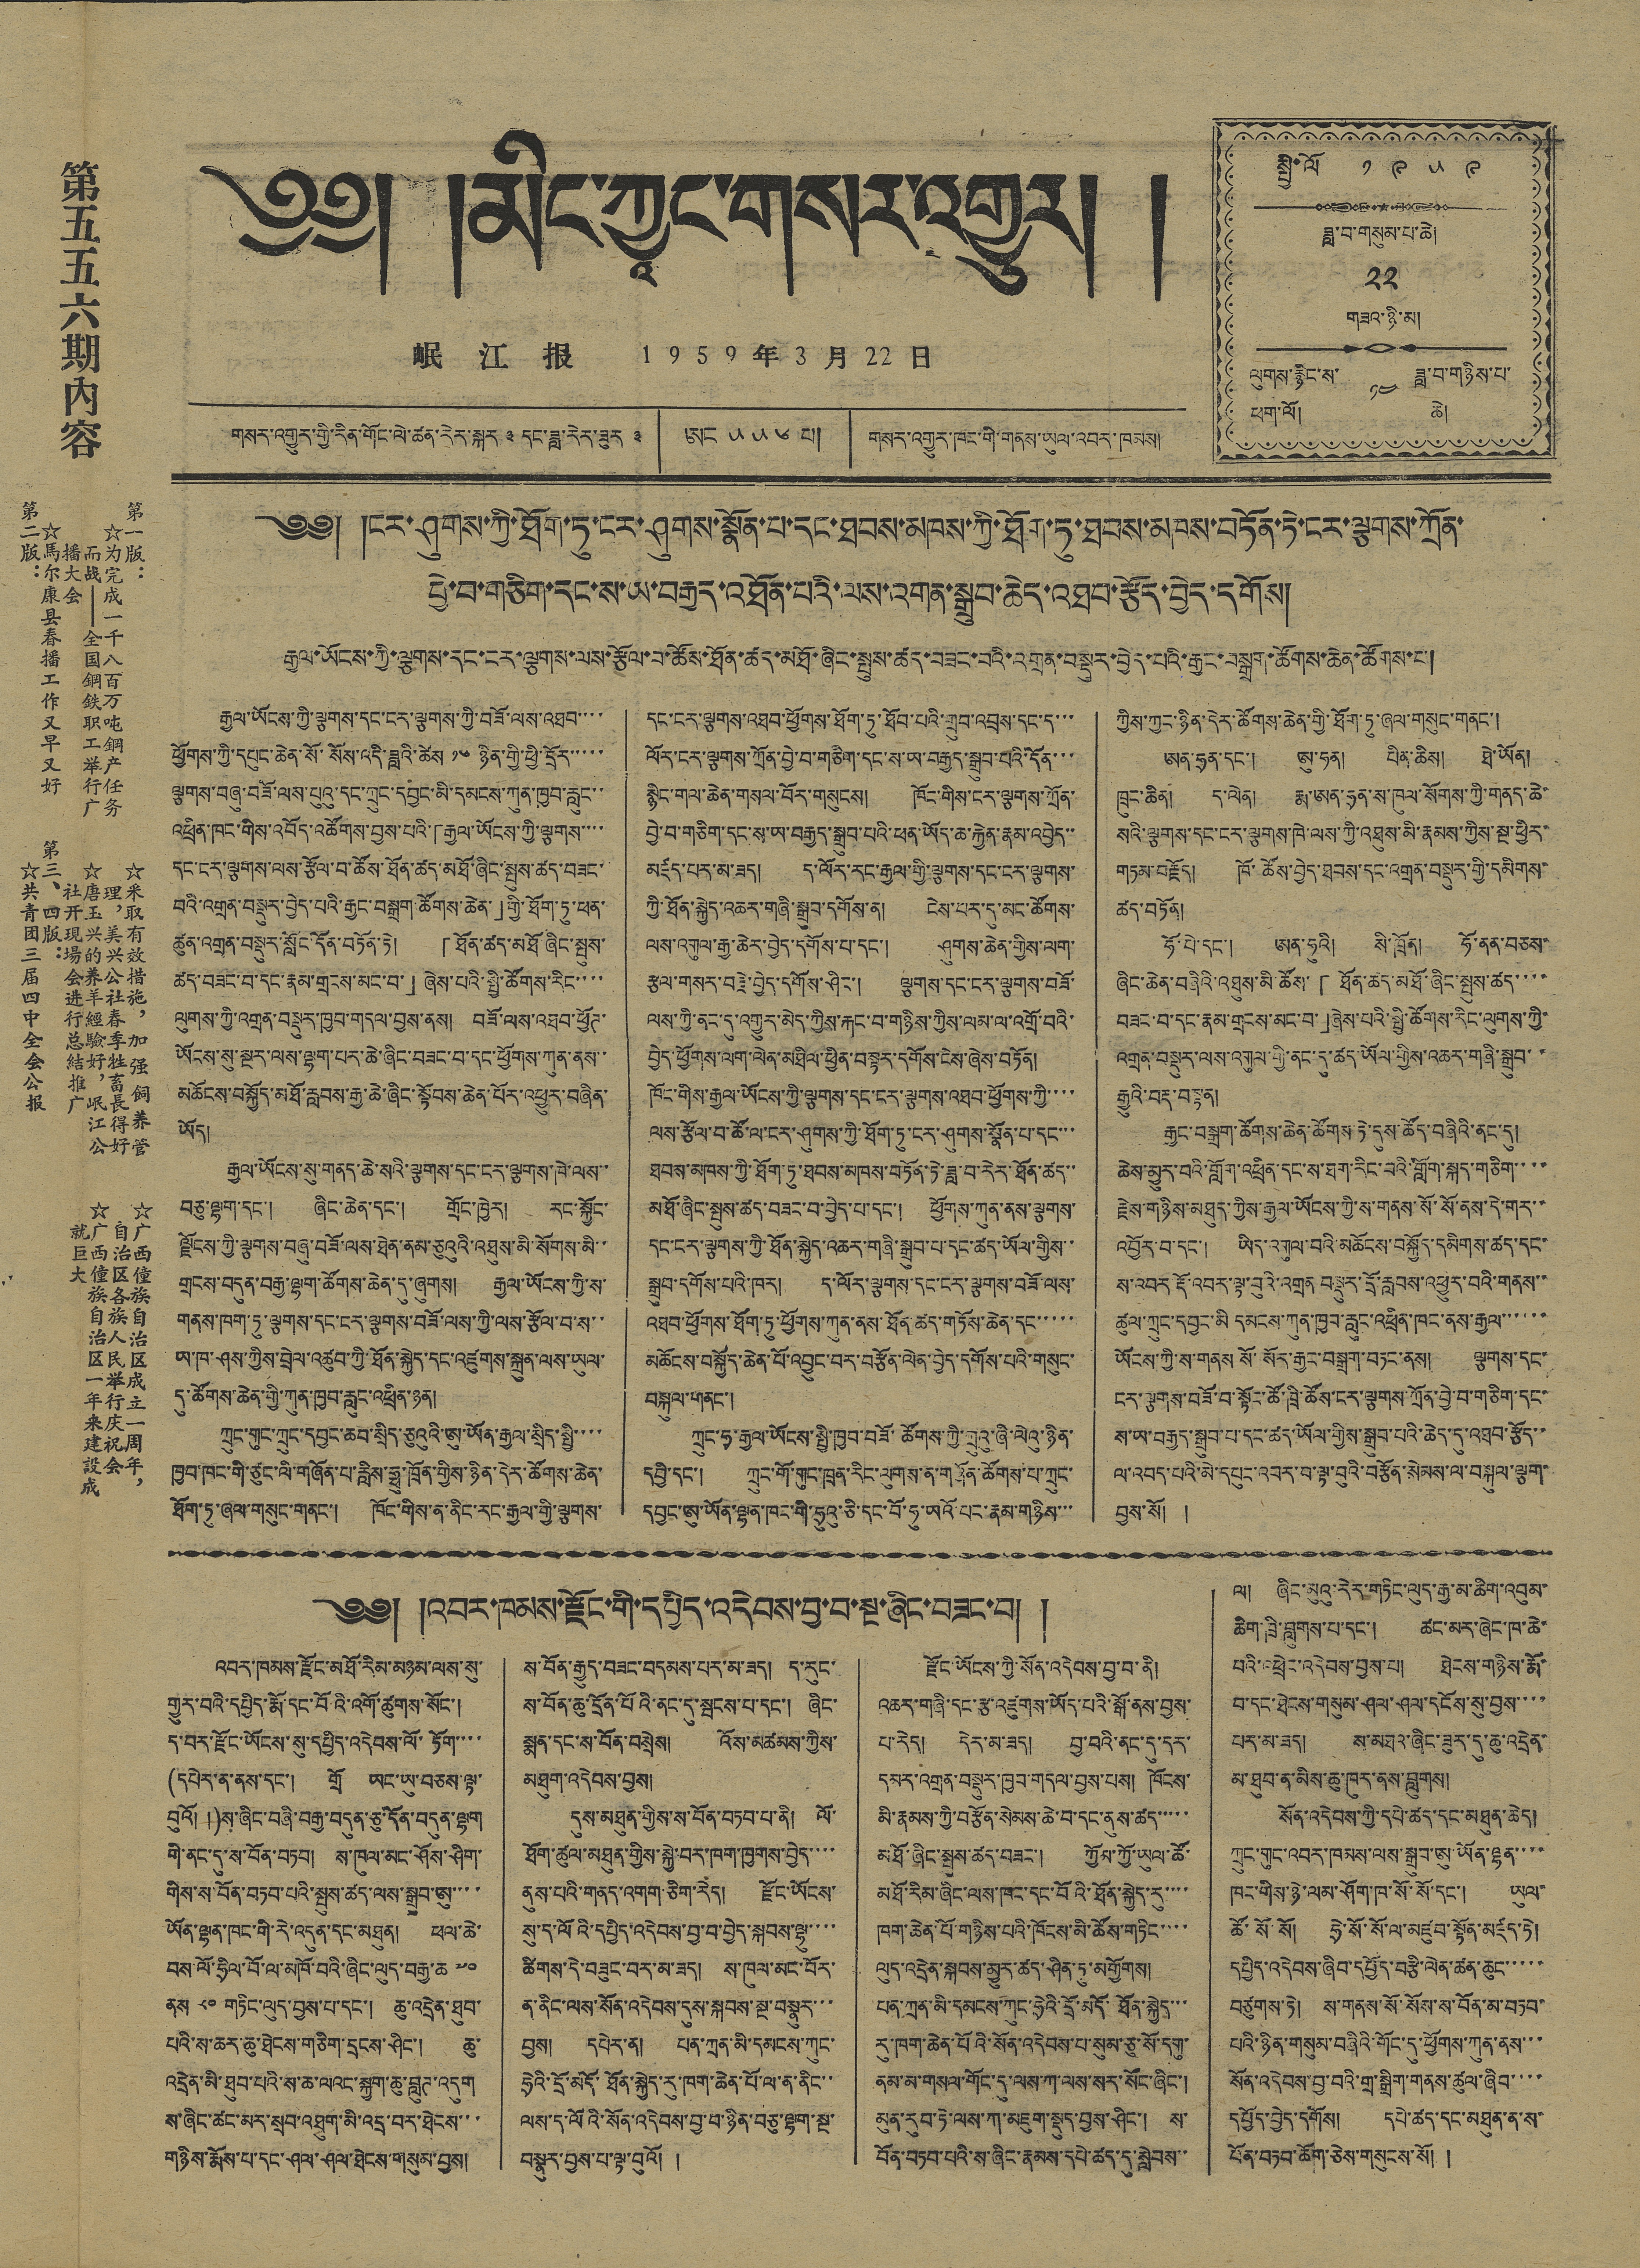༄༅། །མིང་ཀྱཱང་གསར་འགྱུར། །
第五五六期內容
第一版：
☆为完成一千八百万吨鋼产任务
而战——全国鋼鉄职工举行广
播大会
☆馬尔康县春播工作又早又好
第二版：
☆采取有效措施，加强飼养管
理，美兴公社春季牲畜長得好
☆唐玉兴的养羊經驗好，岷江公
社开現場会进行总結推广
第三、四版：
☆共青团三届四中全会公报
☆广西僮族自治区成立一周年，
自治区各族人民举行庆祝会
☆广西僮族自治区一年來建設成
就巨大
岷 江 报 1 9 5 9 年 3 月 22 日
གསར་འགྱུར་གྱི་རིན་གོང་ལེ་ཚན་རེར་སྐར ༣ དང་ཟླ་རེར་ཟུར ༣ ཨང ༥༥༦ པ། གསར་འགྱུར་ཁང་གི་གནས་ཡུལ་འབར་ཁམས།
སྤྱི་ལོ ༡ ༩ ༥ ༩
ཟླ་བ་གསུམ་པ་ཆེ།
༢༢
གཟའ་ཉི་མ།
ལུགས་རྙིང་ས་
ཕག་ལོ།
༡༤
ཟླ་བ་གཉིས་པ་
ཆེ།
༄༅། །ངར་ཤུགས་ཀྱི་ཐོག་ཏུ་ངར་ཤུགས་སྣོན་པ་དང་ཐབས་མཁས་ཀྱི་ཐོག་ཏུ་ཐབས་མཁས་བཏོན་ཏེ་ངར་ལྕགས་ཀྲོན་
བྱེ་བ་གཅིག་དང་ས་ཡ་བརྒྱད་འཐོན་པའི་ལས་འགན་སྒྲུབ་ཆེད་འཐབ་རྩོད་བྱེད་དགོས།
རྒྱལ་ཡོངས་ཀྱི་ལྕགས་དང་ངར་ལྕགས་ལས་རྩོལ་བ་ཚོས་ཐོན་ཚད་མཐོ་ཞིང་སྤུས་ཚད་བཟང་བའི་འགྲན་བསྡུར་བྱེད་པའི་རྒྱང་བསྒྲག་ཚོགས་ཆེན་ཚོགས་པ།
རྒྱལ་ཡོངས་ཀྱི་ལྕགས་དང་ངར་ལྕགས་ཀྱི་བཟོ་ལས་འཐབ་་་་
ཕྱོགས་ཀྱི་དཔུང་ཆེན་སོ་སོས་འདི་ཟླའི་ཚེས ༡༦ ཉིན་གྱི་ཕྱི་དྲོར་་་་་
ལྕགས་བཞུ་བཟོ་ལས་པུའུ་དང་ཀྲུང་དབྱང་མི་དམངས་ཀུན་ཁྱབ་རླུང་་
འཕྲིན་ཁང་གིས་འབོད་འཚོགས་བྱས་པའི་「རྒྱལ་ཡོངས་ཀྱི་ལྕགས་་་་
དང་ངར་ལྕགས་ལས་རྩོལ་བ་ཚོས་ཐོན་ཚད་མཐོ་ཞིང་སྤུས་ཚད་བཟང་
བའི་འགྲན་བསྡུར་བྱེད་པའི་རྒྱང་བསྒྲག་ཚོགས་ཆེན་」གྱི་ཐོག་ཏུ་ཕན་
ཚུན་འགྲན་བསྡུར་སློང་དོན་བཏོན་ཏེ། 「ཐོན་ཚད་མཐོ་ཞིང་སྤུས་
ཚད་བཟང་བ་དང་རྣམ་གྲངས་མང་བ་」ཞེས་པའི་སྤྱི་ཚོགས་རིང་་་་
ལུགས་ཀྱི་འགྲན་བསྡུར་ཁྱབ་གདལ་བྱས་ནས། བཟོ་ལས་འཐབ་ཕྱོཊ་
ཡོངས་སུ་སྔར་ལས་ལྷག་པར་ཆེ་ཞིང་བཟང་བ་དང་ཕྱོགས་ཀུན་ནས་
མཆོངས་བསྐྱོད་མཐོ་རླབས་རྒྱ་ཆེ་ཞིང་སྟོབས་ཆེན་པོར་འཕྱུར་བཞིན་
ཡོད།
རྒྱལ་ཡོངས་སུ་གནད་ཆེ་སའི་ལྕགས་དང་ངར་ལྕགས་ཁེ་ལས་་
བཅུ་ལྷག་དང་། ཞིང་ཆེན་དང་། གྲོང་ཁྱེར། རང་སྐྱོང་
ལྗོངས་ཀྱི་ལྕགས་བཞུ་བཟོ་ལས་ཐེན་ནམ་ཅུའུའི་འཐུས་མི་སོགས་མི་་
གྲངས་བདུན་བརྒྱ་ལྷག་ཚོགས་ཆེན་དུ་ཞུགས། རྒྱལ་ཡོངས་ཀྱི་ས་
གནས་ཁག་ཏུ་ལྕགས་དང་ངར་ལྕགས་བཟོ་ལས་ཀྱི་ལས་རྩོལ་བ་ས་་
ཡ་ཁ་ཤས་ཀྱིས་བྲེལ་འཚུབ་ཀྱི་ཐོན་སྐྱེད་དང་འཛུགས་སྐྲུན་ལས་ཡུལ་
དུ་ཚོགས་ཆེན་གྱི་ཀུན་ཁྱབ་རླུང་འཕྲིན་ཉན།
ཀྲུང་གུང་ཀྲུང་དབྱང་ཆབ་སྲིད་ཅུའུའི་ཨུ་ཡོན་རྒྱལ་སྲིད་སྤྱི་་་་
ཁྱབ་ཁང་གི་ཙུང་ལི་གཞོན་པ་རླིས་ཧྥུ་ཁྲོན་གྱིས་ཉིན་དེར་ཚོགས་ཆེན་
ཐོག་ཏུ་ཞལ་གསུང་གནང་། ཁོང་གིས་ན་ནིང་རང་རྒྱལ་གྱི་ལྕགས་
དང་ངར་ལྕགས་འཐབ་ཕྱོགས་ཐོག་ཏུ་ཐོབ་པའི་གྲུབ་འབྲས་དང་ད་་་
ལོར་ངར་ལྕགས་ཀྲོན་བྱེ་བ་གཅིག་དང་ས་ཡ་བརྒྱད་སྒྲུབ་པའི་དོན་་་
སྙིང་གལ་ཆེན་གསལ་བོར་གསུངས། ཁོང་གིས་ངར་ལྕགས་ཀྲོན་
བྱེ་བ་གཅིག་དང་ས་ཡ་བརྒྱད་སྒྲུབ་པའི་ཕན་ཡོད་ཆ་རྐྱེན་རྣམ་འབྱེད་་
མཛད་པར་མ་ཟད། ད་ལོར་རང་རྒྱལ་གྱི་ལྕགས་དང་ངར་ལྕགས་
ཀྱི་ཐོན་སྐྱེད་འཆར་གཞི་སྒྲུབ་དགོས་ན། ངེས་པར་དུ་མང་ཚོགས་
ལས་འགུལ་རྒྱ་ཆེར་བྱེད་དགོས་པ་དང་། ཤུགས་ཆེན་གྱིས་ལག་
རྩལ་གསར་བརྗེ་བྱེད་དགོས་ཤིང་། ལྕགས་དང་ངར་ལྕགས་བཟོ་
ལས་ཀྱི་ནང་དུ་འགྱུར་མེད་ཀྱིས་རྐང་བ་གཉིས་ཀྱིས་ལམ་ལ་འགྲོ་བའི་
བྱེད་ཕྱོགས་ལག་ལེན་མཐིལ་ཕྱིན་བསྟར་དགོས་ངེས་ཞེས་བཏོན།
ཁོང་གིས་རྒྱལ་ཡོངས་ཀྱི་ལྕགས་དང་ངར་ལྕགས་འཐབ་ཕྱོགས་ཀྱི་་་་
ལས་རྩོལ་བ་ཚོ་ལ་ངར་ཤུགས་ཀྱི་ཐོག་ཏུ་ངར་ཤུགས་སྣོན་པ་དང་་་
ཐབས་མཁས་ཀྱི་ཐོག་ཏུ་ཐབས་མཁས་བཏོན་ཏེ་ཟླ་བ་རེར་ཐོན་ཚད་་
མཐོ་ཞིང་སྤུས་ཚད་བཟང་བ་བྱེད་པ་དང་། ཕྱོགས་ཀུན་ནས་ལྕགས་
དང་ངར་ལྕགས་ཀྱི་ཐོན་སྐྱེད་འཆར་གཞི་སྒྲུབ་པ་དང་ཚད་ཡོལ་གྱིས་་
སྒྲུབ་དགོས་པའི་ཁྲར། ད་ལོར་ལྕགས་དང་ངར་ལྕགས་བཟོ་ལས་
འཐབ་ཕྱོགས་ཐོག་ཏུ་ཕྱོགས་ཀུན་ནས་ཐོན་ཚད་གཏོས་ཆེན་དང་་་་་
མཆོངས་བསྐྱོད་ཆེན་པོ་འབྱུང་བར་བརྩོན་ལེན་བྱེད་དགོས་པའི་གསུང་
བསྐུལ་གནང་།
ཀྲུང་ཧྭ་རྒྱལ་ཡོངས་སྤྱི་ཁྱབ་བཟོ་ཚོགས་ཀྱི་ཀྲུའུ་ཞི་ལེའུ་ཉིན་
དཔྱི་དང་། ཀྲུང་གོ་གུང་ཁྲན་རིང་ལུགས་ན་གཞོན་ཚོགས་པ་ཀྲུང་
དབྱང་ཨུ་ཡོན་ལྷན་ཁང་གི་ཧྲུའུ་ཅི་དང་བོ་ཧུ་ཡའོ་པང་རྣམ་གཉིས་་་
ཀྱིས་ཀྱང་ཉིན་དེར་ཚོགས་ཆེན་གྱི་ཐོག་ཏུ་ཞལ་གསུང་གནང་།
ཨན་ཧྲན་དང་། ཨུ་ཧན། པིན་ཆིས། ཐེ་ཡོན།
ཁྲུང་ཆིན། ད་ལེན། རྨ་ཨན་ཧྲན་ས་ཁུལ་སོགས་ཀྱི་གནད་ཆེ་
སའི་ལྕགས་དང་ངར་ལྕགས་ཁེ་ལས་ཀྱི་འཐུས་མི་རྣམས་ཀྱིས་སྔ་ཕྱིར་
གཏམ་བརྗོད། ཁོ་ཚོས་བྱེད་ཐབས་དང་འགྲན་བསྡུར་གྱི་དམིགས་
ཚད་བཏོན།
ཧོ་པེ་དང་། ཨན་ཧུའི། སི་ཁྲོན། ཧོ་ནན་བཅས་
ཞིང་ཆེན་བཞིའི་འཐུས་མི་ཚོས་「ཐོན་ཚད་མཐོ་ཞིང་སྤུས་ཚད་་་་
བཟང་བ་དང་རྣམ་གྲངས་མང་བ་」ཞེས་པའི་སྤྱི་ཚོགས་རིང་ལུགས་ཀྱི་
འགྲན་བསྡུར་ལས་འགུལ་གྱི་ནང་དུ་ཚད་ཡོལ་གྱིས་འཆར་གཞི་སྒྲུབ་་
རྒྱུའི་བརྡ་བསྟན།
རྒྱང་བསྒྲག་ཚོགས་ཆེན་ཚོགས་ཏེ་དུས་ཚོད་བཞིའི་ནང་དུ།
ཆེས་མྱུར་བའི་གློག་འཕྲིན་དང་ས་ཐག་རིང་བའི་གློག་སྐད་གཅིག་་་་
རྗེས་གཉིས་མཐུད་ཀྱིས་རྒྱལ་ཡོངས་ཀྱི་ས་གནས་སོ་སོ་ནས་དེ་གར་་
འབྱོར་བ་དང་། ཡིད་འགུལ་བའི་མཆོངས་བསྐྱོད་དམིགས་ཚད་དང་
ས་འབར རྡོ་འབར་ལྟ་བའི་འགྲན བསྡུར་དྲོ་རླབས་འཕྱུར་བའི་གནས་་
ཚུལ་ཀྲུང་དབྱང་མི དམངས་ཀུན་ཁྱབ་རླུང་འཕྲིན་ཁང་ནས་རྒྱལ་་་་་་
ཡོངས་ཀྱི་ས་གནས སོ་སོར་རྒྱང་བསྒྲག་བཏང་ནས། ལྕགས་དང་
ངར་ལྕགས་བཟོ་བ་སྟོང་ཚོ་ཁྲི་ཚོས་ངར་ལྕགས་ཀྲོན་བྱེ་བ་གཅིག་དང་
ས་ཡ་བརྒྱད་སྒྲུབ་པ་དང་ཚད་ཡོལ་གྱིས་སྒྲུབ་པའི་ཆེད་དུ་འཐབ་རྩོད་་
ལ་འབད་པའི་མེ་དཔུང་འབར་བ་ལྟ་བུའི་བརྩོན་སེམས་ལ་བསྐུལ་ལྕག་
བྱས་སོ། །
༄༅། །འབར་ཁམས་རྫོང་གི་དཔྱིད་འདེབས་བྱ་བ་སྔ་ཞིང་བཟང་བ། །
འབར་ཁམས་རྫོང་མཐོ་རིམ་མཉམ་ལས་སུ་
གྱུར་བའི་དཔྱིད་རྨོ་དང་བོའི་འགོ་ཚུགས་སོང་།
ད་བར་རྫོང་ཡོངས་སུ་དཔྱིད་འདེབས་ལོ་ཏོག་་་་
(དཔེར་ན་ནས་དང་། གྲོ ཡང་ཡུ་བཅས་ལྟ་
བུའོ། །)ས་ཞིང་བཞི་བརྒྱ་བདུན་ཅུ་དོན་བདུན་ལྷག
གི་ནང་དུ་ས་བོན་བཏབ། ས་ཁུལ་མང་ཤོས་ཤིག་
གིས་ས་བོན་བཏབ་པའི་སྤུས་ཚད་ལས་སྒྲུབ་ཨུ་་་་
ཡོན་ལྷན་ཁང་གི་རེ་འདུན་དང་མཐུན། ཕལ་ཆེ་
བས་ལོ་ཧྲིལ་བོ་ལ་མཁོ་བའི་ཞིང་ལུད་བརྒྱ་ཆ ༧༠
ནས ༨༠ གཏིང་ལུད་བྱས་པ་དང་། ཆུ་འདྲེན་ཐུབ་
པའི་ས་ཆར་ཆུ་ཐེངས་གཅིག་དྲངས་ཤིང་། ཆུ་
འདྲེན་མི་ཐུབ་པའི་ས་ཆ་ལའང་སྐྱག་ཆུ་བླུཊ་འདུག
ས་ཞིང་ཚང་མར་སྲབ་འཐུག་མི་འདྲ་བར་ཐེངས་་་
གཉིས་རྨོས་པ་དང་ཤལ་ཤལ་ཐེངས་གསུམ་བྱས།
ས་བོ་རྒྱུད་བཟང་བདམས་པར་མ་ཟད། ད་རུང་
ས་བོན་ཆུ་དྲོན་པོའི་ནང་དུ་སྦངས་པ་དང་། ཞིང་
སྨན་དང་ས་བོན་བསྲེས། འོས་མཚམས་ཀྱིས་
མཐུག་འདེབས་བྱས།
དུས་མཐུན་གྱིས་ས་བོན་བཏབ་པ་ནི། ལོ་
ཐོག་ཚུལ་མཐུན་གྱིས་སྐྱེ་བར་ཁག་ཁྱགས་བྱེད་་་་
ནུས་པའི་གནད་འགག་ཅིག་རེད། རྫོང་ཡོངས་
སུ་ད་ལོའི་དཔྱིད་འདེབས་བྱ་བ་བྱེད་སྐབས་ལྷུ་་་་
ཚིགས་དེ་བཟུང་བར་མ་ཟད། ས་ཁུལ་མང་བོར་
ན་ནིང་ལས་སོན་འདེབས་དུས་སྐབས་སྔ་བསྣུར་་་
བྱས། དཔེར་ན། པན་ཀྲན་མི་དམངས་ཀུང་
ཧྲེའི་དྲོ་མདོ་ཐོན་སྐྱེད་རུ་ཁག་ཆེན་པོ་ལ་ན་ནིང་་
ལས་ད་ལོའི་སོན་འདེབས་བྱ་བ་ཉིན་བཅུ་ལྷག་སྔ་
བསྣུར་བྱས་པ་ལྟ་བུའོ། །
རྫོང་ཡོངས་ཀྱི་སོན་འདེབས་བྱ་བ་ནི།
འཆར་གཞི་དང་རྩ་འཛུགས་ཡོད་པའི་སྒོ་ནས་བྱས་
པ་རེད། དེར་མ་ཟད། བྱ་བའི་ནང་དུ་དར་
དམར་འགྲན་བསྡུར་ཁྱབ་གདལ་བྱས་པས། ཁོངས་
མི་རྣམས་ཀྱི་བརྩོན་སེམས་ཆེ་བ་དང་ནས་ཚད་་་་་
མཐོ་ཞིང་སྤུས་ཚད་བཟང་། ཀྱོམ་ཀྱོ་ཡུལ་ཚོ་
མཐོ་རིམ་ཞིང་ལས་ཁང་དང་བོའི་ཐོན་སྐྱེད་རུ་་་་
ཁག་ཆེན་པོ་གཉིས་པའི་ཁོངས་མི་ཚོས་གཏིང་་་་
ལུད་འདྲེན་སྐབས་མྱུར་ཚད་ཤིན་ཏུ་མགྱོགས།
པན་ཀྲན་མི་དམངས་ཀུང་ཧྲེའི་དྲོ་མདོ་ཐོན་སྐྱེད་་་
རུ་ཁག་ཆེན་པོའི་སོན་འདེབས་པ་སུམ་ཅུ་སོ་དགུ་
ནམ་མ་གསལ་གོང་དུ་ལས་ཀ་ལས་སར་སོང་ཞིང་།
མུན་རུབ་ཏེ་ལས་ཀ་མཇུག་སྡུད་བྱས་ཤིང་། ས་
བོན་བཏབ་པའི་ས་ཞིང་རྣམས་དཔེ་ཚད་དུ་སླེབས་་
ལ། ཞིང་མུའུ་རེར་གཏིང་ལུད་རྒྱ་མ་ཆིག་འབུམ་
ཆིག་ཁྲི་བླུགས་པ་དང་། ཚང་མར་ཞེང་ཁ་ཆེ་
པའི་འཕྲེང་འདེབས་བྱས་པ། ཐེངས་གཉིས་རྨོ་
བ་དང་ཐེངས་གསུམ་ཤལ་ཤལ་དངོས་སུ་བྱས་་་་
པར་མ་ཟད། ས་མཐའ་ཞིང་ཟུར་དུ་ཆུ་འདྲེན་
མ་ཐུབ་ན་མིས་ཆུ་ཁུར་ནས་བླུགས།
སོན་འདེབས་ཀྱི་དཔེ་ཚད་དང་མཐུན་ཆེད།
ཀྲུང་གུང་འབར་ཁམས་ལས་སྒྲུབ་ཨུ་ཡོན་ལྷན་་་་
ཁང་གིས་ཉེ་ལམ་ཤོག་ཁ་སོ་སོ་དང་། ཡུལ་
ཚོ་སོ་སོ། ཧྲེ་སོ་སོ་ལ་མཛུབ་སྟོན་མཛད་ཏེ།
དཔྱིད་འདེབས་ཞིབ་དཔྱོད་བརྩི་ལེན་ཚན་ཆུང་་་་་
བཙུགས་ཏེ། ས་གནས་སོ་སོས་ས་བོན་མ་བཏབ་
པའི་ཉིན་གསུམ་བཞིའི་གོང་དུ་ཕྱོགས་ཀུན་ནས་་་
སོན་འདེབས་བྱ་བའི་གྲ་སྒྲིག་གནས་ཚུལ་ཞིབ་་་་
དཔྱོད་བྱེད་དགོས། དཔེ་ཚད་དང་མཐུན་ན་ས་
བོན་བཏབ་ཆོག་ཅེས་གསུངས་སོ། །
